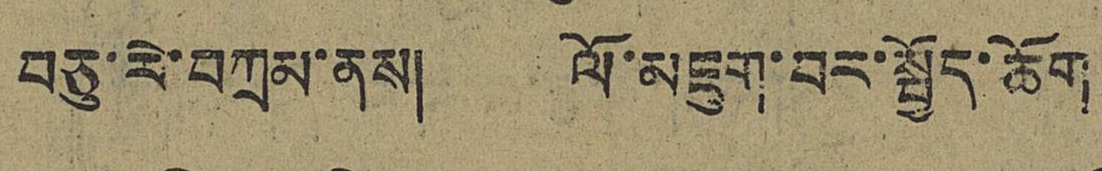བཅུ་རེ་བཀྲམ་ནས། ལོ་མཇུག་བར་སྤྱོད་ཆོག
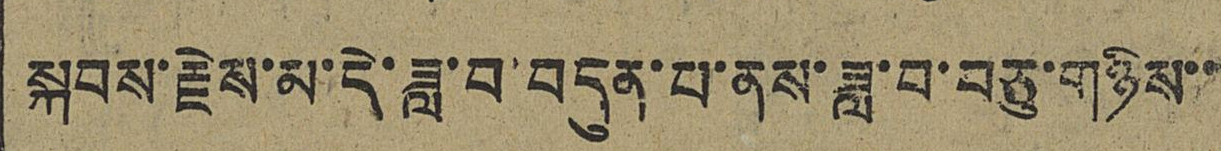སྐབས་རྗེས་མ་དེ་ཟླ་བ་བདུན་པ་ནས་ཟླ་བ་བཅུ་གཉིས་་
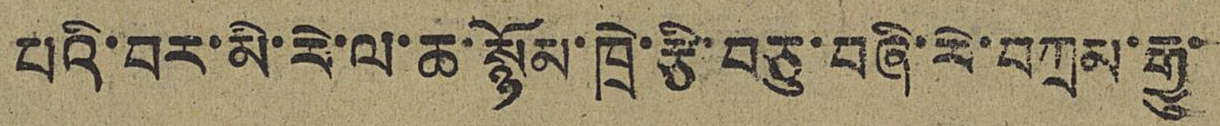པའི་བར་མི་རེ་ལ་ཆ་སྙོམ་ཁྲེ་རྩི་བཅུ་བཞི་རེ་བཀྲམ་རྒྱུ་
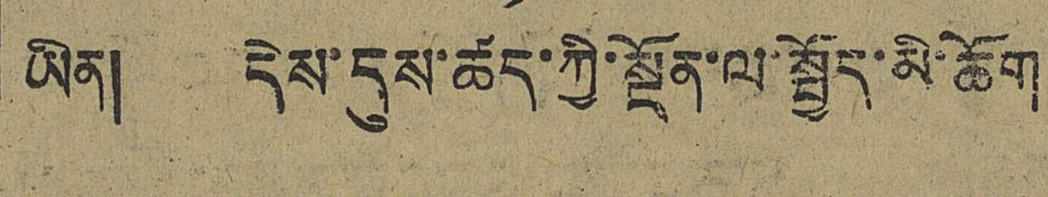ཡིན། དེས་དུས་ཚད་ཀྱི་སྔོན་ལ་སྤྱོད་མི་ཆོག
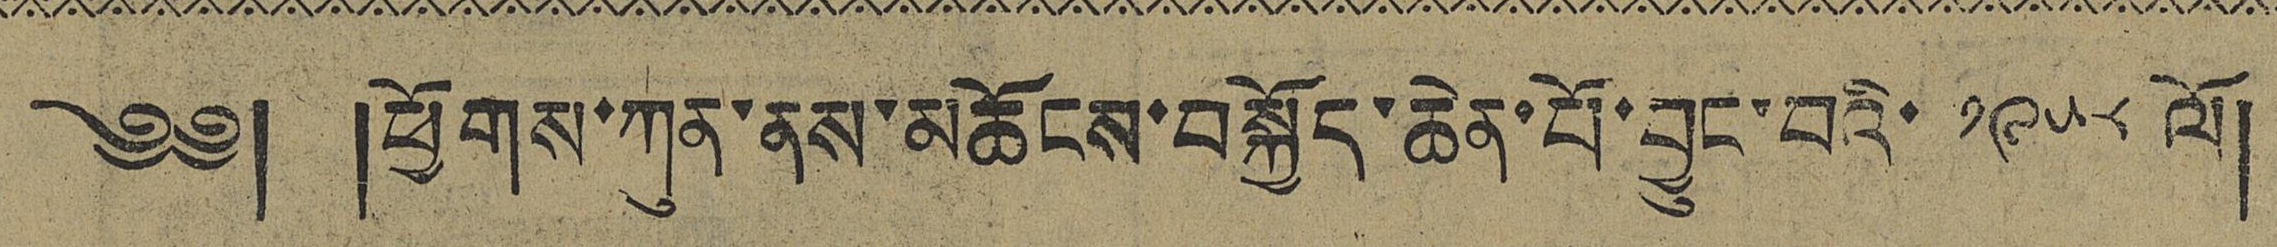༄༅། །ཕྱོགས་ཀུན་ནས་མཆོངས་བསྐྱོད་ཆེན་པོ་བྱུང་བའི་ ༡༩༥༨ ལོ།
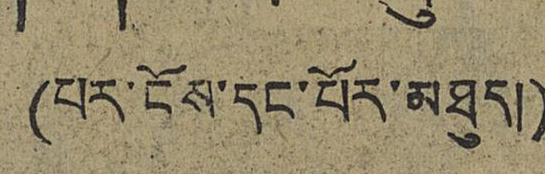(པར་ངོས་དང་པོར་མཐུད།)
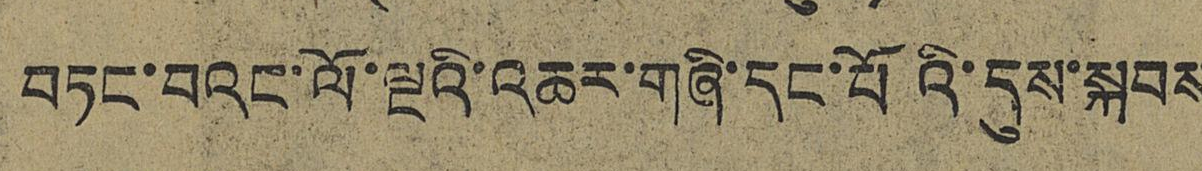བཏང་བའང་ལོ་ལྔའི་འཆར་གཞི་དང་པོའི་དུས་སྐབས
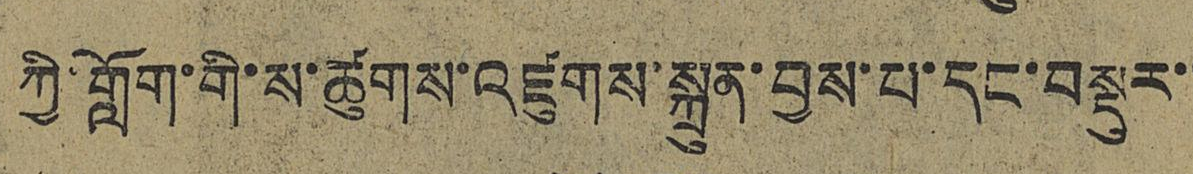ཀྱི་གློག་གི་ས་ཚུགས་འཛུགས་སྐྲུན་བྱས་པ་དང་བསྡུར་་
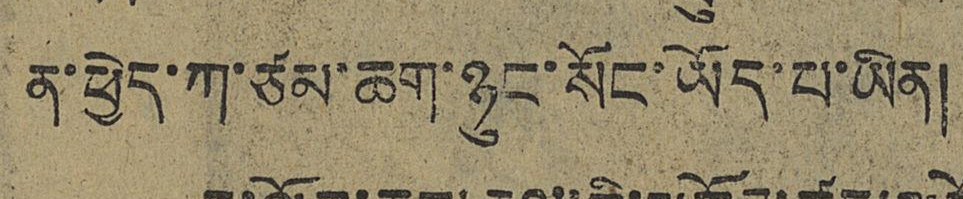ན་ཕྱེད་ཀ་ཙམ་ཆག་ཉུང་སོང་ཡོད་པ་ཡིན།
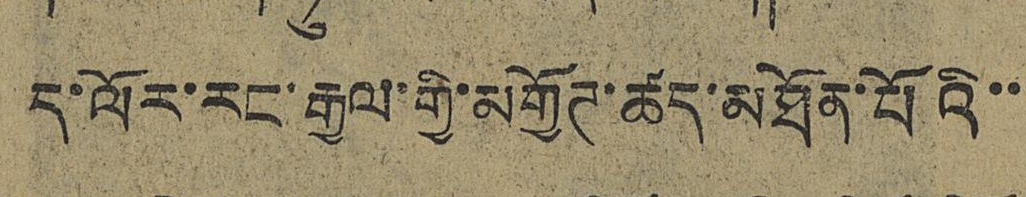ད་ལོར་རང་རྒྱལ་གྱི་མགྱོཊ་ཚད་མཐོན་པོའི་་་
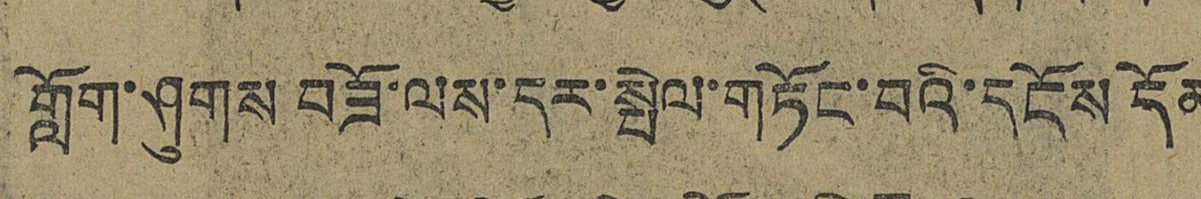གློག་ཤུགས བཟོ་ལས་དར་སྤེལ་གཏོང་བའི་དངོས དོན
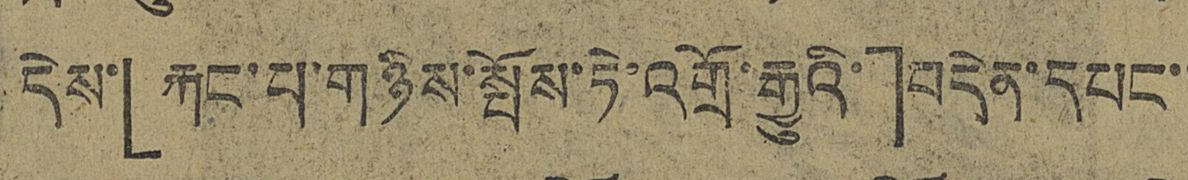དེས་「རྐང་པ་གཉིས་སྤོས་ཏེ་འགྲོ་རྒྱུའི་」བདེན་དཔང་་
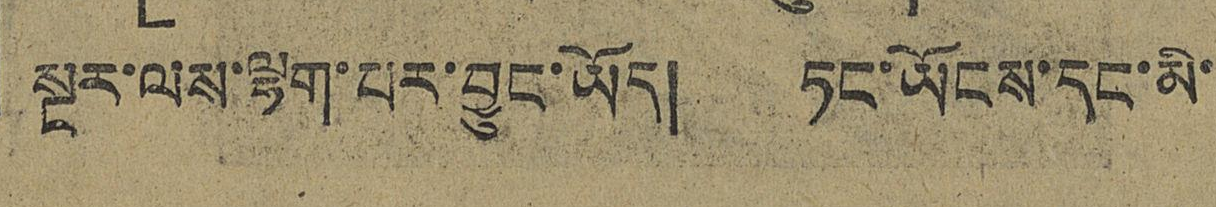སྔར་ལས་ལྷག་པར་བྱུང་ཡོད། ཏང་ཡོངས་དང་མི་
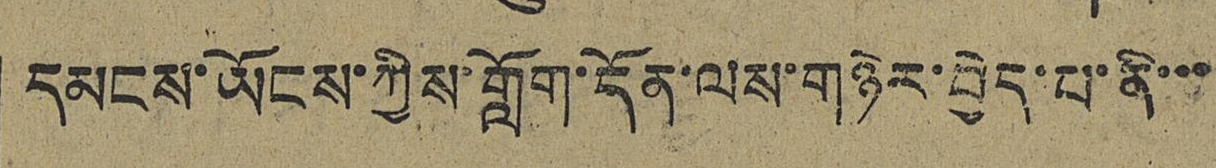དམངས་ཡོངས་ཀྱིས་གློག་དོན་ལས་གཉེར་བྱེད་པ་ནི་་་
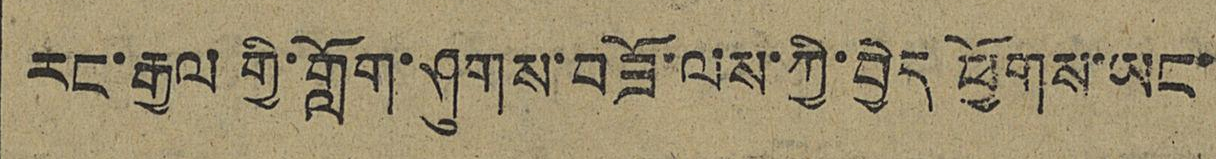རང་རྒྱལ གྱི་གློག་ཤུགས་བཟོ་ལས་ཀྱི་བྱེད ཕྱོགས་ཡང་
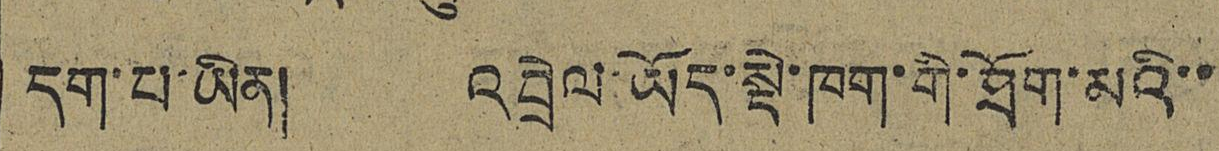དག་པ་ཡིན། འབྲེལ ཡོད་སྡེ་ཁག་གི་ཐོག་མའི་་
